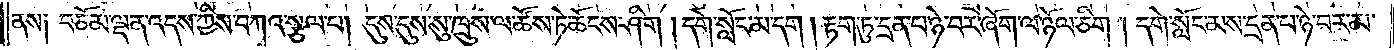ནས༑ བཅོམ་ལྡན་འདས་ཀྱིས་བཀའ་སྩལ་པ། དུས་དུས་སུ་ཁྲུས་ལ་ཚོས་ཏེ་ཆོངས་ཤིག །དགེ་སློང་མ་དག །རྟག་ཏུ་དྲན་པ་ཉེ་བར་ཞོག་ལ་ཉོལ་ཅིག། དགེ་སློང་མས་དྲན་པ་ཉེ་བར་མ་
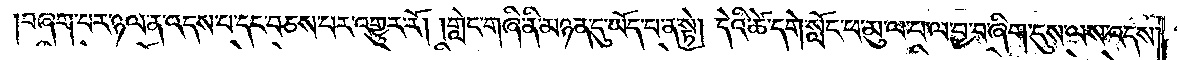བཞག་པར་ཉལ་ན་འདས་པ་དང་བཅས་པར་འགྱུར་རོ། །གླེང་གཞི་ནི་མཉན་དུ་ཡོད་པ་ན་སྟེ། དེའི་ཚེ་དགེ་སློང་ཕ་མུ་ལ་པ་ལ་བྱ་བ་ཞིག་དུས་ལས་འདས་
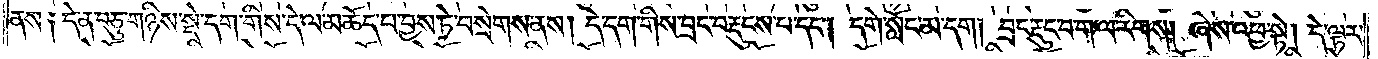ནས༑ དེ་ན་བཅུ་གཉིས་སྡེ་དག་གིས་དེ་ལ་མཆོད་པ་བྱས་ཏེ་བསྲེགས་ནས། དེ་དག་གིས་བྲང་བརྡུངས་པ་དང༌། དགེ་སློང་མ་དག། བྲང་རྡུང་བ་ག་ལ་རིགས། ཞེས་འཕྱ་སྟེ། དེ་ལྟར་
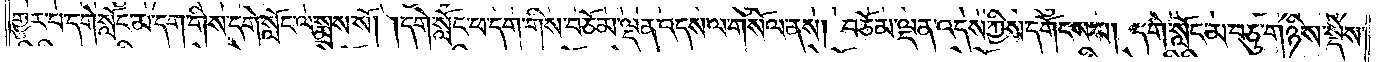གྱུར་པ་དགེ་སློང་མ་དག་གིས་དགེ་སློང་ལ་སྨྲས་སོ། །དགེ་སློང་ཕ་དག་གིས་བཅོམ་ལྡན་འདས་ལ་གསོལ་ནས། བཅོམ་ལྡན་འདས་ཀྱིས་དགོངས་པ། དགེ་སློང་མ་བཅུ་གཉིས་སྡེས་
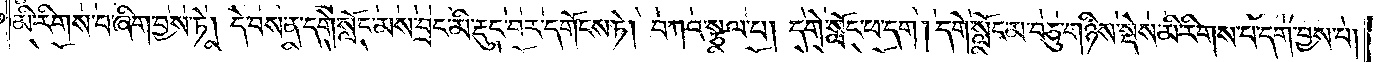མི་རིགས་པ་ཞིག་བྱས་ཏེ། དེ་བས་ན་དགེ་སློང་མས་བྲང་མི་རྡུང་བར་དགོངས་ཏེ། བཀའ་སྩལ་པ། དགེ་སློང་ཕ་དག། དགེ་སློང་མ་བཅུ་གཉིས་སྡེས་མི་རིགས་པ་དག་བྱས་པ།
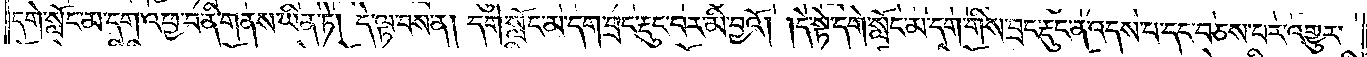དགེ་སློང་མ་དག་འཕྱ་བ་ནི་གནས་ཡིན་ཏེ། དེ་ལྟ་བས་ན། དགེ་སློང་མ་དག་བྲང་རྡུང་བར་མི་བྱའོ། །དེ་སྟེ་དགེ་སློང་མ་དག་གིས་བྲང་རྡུང་ན་འདས་པ་དང་བཅས་པར་འགྱུར་
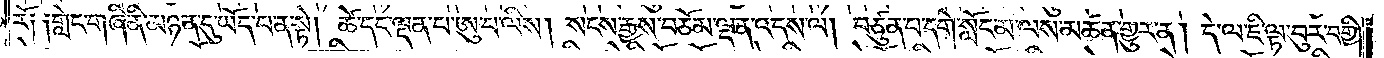རོ༑ ༑གླེང་གཞི་ནི་མཉན་དུ་ཡོད་པ་ན་སྟེ། ཚེ་དང་ལྡན་པ་ཨུ་པ་ལིས། སངས་རྒྱས་བཅོམ་ལྡན་འདས་ལ། བཙུན་པ་དགེ་སློང་མ་ལས་མཚན་གྱུར་ན། དེ་ལ་ཇི་ལྟ་བུར་བགྱི་
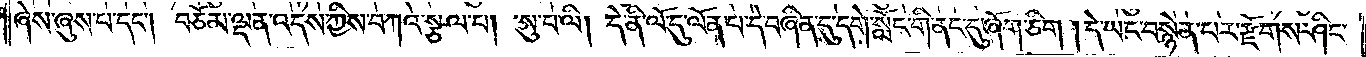ཞེས་ཞུས་པ་དང༌། བཅོམ་ལྡན་འདས་ཀྱིས་བཀའ་སྩལ་པ། ཨུ་པ་ལི། དེ་ནི་ལོ་དུ་ལོན་པ་དེ་བཞིན་དུ་དགེ་སློང་གི་ནང་དུ་ཞོག་ཅིག །དེ་ཡང་བསྙེན་པར་རྫོགས་ཤིང་
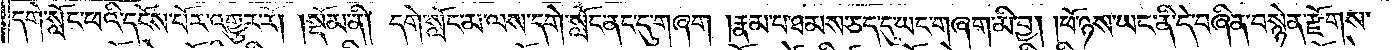དགེ་སློང་ཕའི་དངོས་པོར་འགྱུར་རོ།    །སྡོམ་ནི། དགེ་སློང་མ་ལས་དགེ་སློང་ནང་དུ་གཞག། རྣམ་པ་ཐམས་ཅད་དུ་ཡང་གཞག་མི་བྱ། །ཕོ་ཉས་ཡང་ནི་དེ་བཞིན་བསྙེན་རྫོགས་
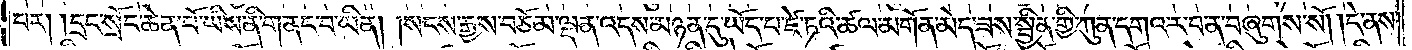པར། །དྲང་སྲོང་ཆེན་པོ་ཡིས་ནི་གནང་བ་ཡིན། །སངས་རྒྱས་བཅོམ་ལྡན་འདས་མཉན་དུ་ཡོད་པ་ཛེ་ཏའི་ཚལ་མགོན་མེད་ཟས་སྦྱིན་གྱི་ཀུན་དགའ་ར་བ་ན་བཞུགས་སོ། །དེ་ནས་
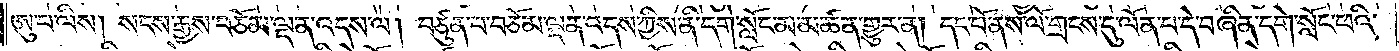ཨུ་པ་ལིས། སངས་རྒྱས་བཅོམ་ལྡན་འདས་ལ། བཙུན་པ་བཅོམ་ལྡན་འདས་ཀྱིས་ནི་དགེ་སློང་མ་མཚན་གྱུར་ན། དང་པོ་ནས་ལོ་གྲངས་དུ་ལོན་པ་དེ་བཞིན་དགེ་སློང་ཕའི་
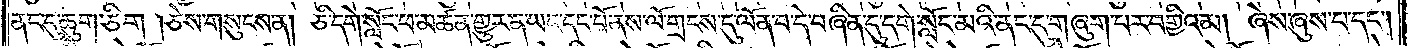ནང་དུ་ཆུག་ཅིག །ཅེས་གསུངས་ན། ཅི་དགེ་སློང་ཕ་མཚན་གྱུར་ན་ཡང་དང་པོ་ནས་ལོ་གྲངས་དུ་ལོན་པ་དེ་བཞིན་དུ་དགེ་སློང་མའི་ནང་དུ་གཞུག་པར་བགྱིའམ། ཞེས་ཞུས་པ་དང༌།
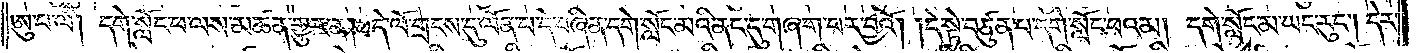ཨུ་པ་ལི། དགེ་སློང་ཕ་ལས་མཚན་གྱུར་ན། དེ་ལོ་གྲངས་དུ་ལོན་པ་དེ་བཞིན་དགེ་སློང་མའི་ནང་དུ་གཞག་པར་བྱའོ། །དེ་སྟེ་བཙུན་པ་དགེ་སློང་ཕའམ། དགེ་སློང་མ་ཡང་རུང༌། དེར་
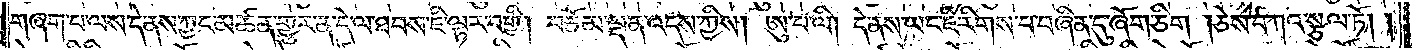གཞག་པ་ལས་དེ་ནས་ཀྱང་མཚན་གྱུར་ན་དེ་ལ་ཐབས་ཇི་ལྟར་བགྱི། བཅོམ་ལྡན་འདས་ཀྱིས། ཨུ་པ་ལི། དེ་ནས་ཡང་ཇི་རིགས་པ་བཞིན་དུ་ཞོག་ཅིག །ཅེས་བཀའ་སྩལ་ཏོ། །
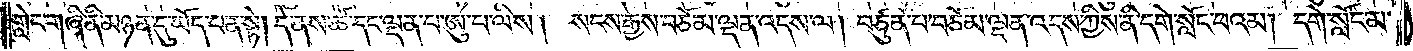གླེང་གཞི་ནི་མཉན་དུ་ཡོད་པ་ན་སྟེ། དེ་ནས་ཚེ་དང་ལྡན་པ་ཨུ་པ་ལིས། སངས་རྒྱས་བཅོམ་ལྡན་འདས་ལ། བཙུན་པ་བཅོམ་ལྡན་འདས་ཀྱིས་ནི་དགེ་སློང་ཕའམ། དགེ་སློང་མ་
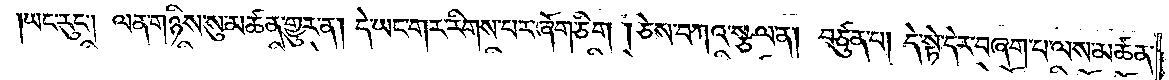ཡང་རུང༌། ལན་གཉིས་སུ་མཚན་གྱུར་ན། དེ་ཡང་གར་རིགས་པར་ཞོག་ཅིག །ཅེས་བཀའ་སྩལ་ན། བཙུན་པ། དེ་སྟེ་དེར་བཞག་པ་ལས་མཚན་
